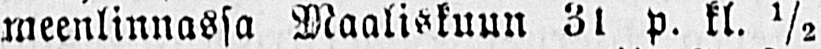meenlinnassa Maaliskuun 31 p. kl. ½
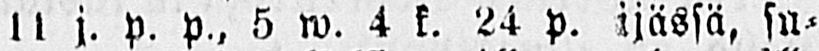11 j. p. p., 5 w. 4 k. 24 p. ijässä, su-
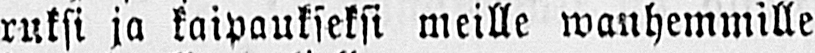ruksi ja kaipaukseksi meille wanhemmille
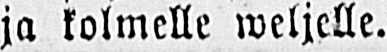ja kolmelle weljelle.
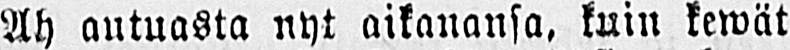Ah autuasta nyt aikanansa, kuin kewät
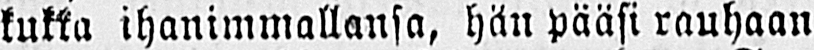kukka ihanimmallansa, hän pääsi rauhaan
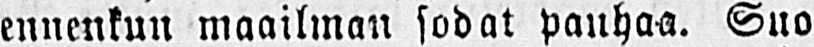ennenkun maailman sodat pauhaa. Suo
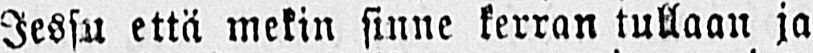Jessu että mekin sinne kerran tullaan ja
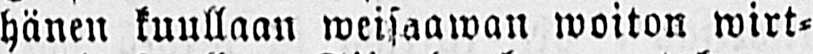hänen kuullaan weisaawan woiton wirt-
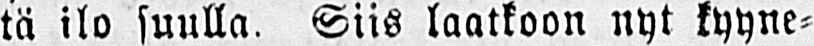tä ilo suulla. Siis laatkoon nyt kyyne-
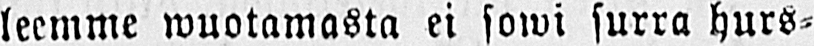leemme wuotamasta ei sowi surra hurs-
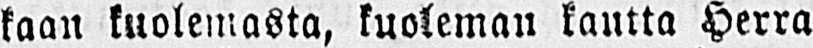kaan kuolemasta, kuoleman kautta Herra
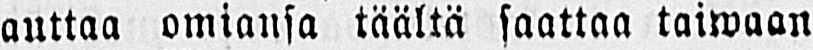auttaa omiansa täältä saattaa taiwaan
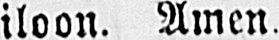iloon. Amen.
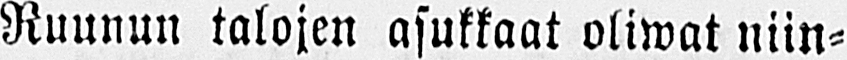Ruunun talojen asukkaat oliwat niin-
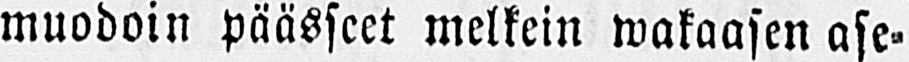muodoin päässeet melkein wakaasen ase-
